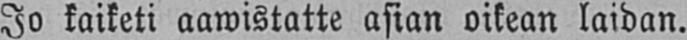Jo kaiketi aawistatte asian oikean laidan.
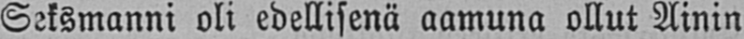Seksmanni oli edellisenä aamuna ollut Ainin
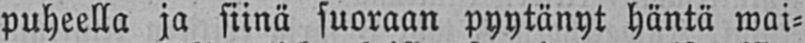puheella ja siinä suoraan pyytänyt häntä wai-
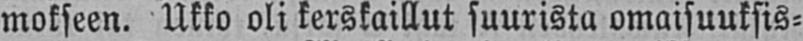mokseen. Ukko oli kerskaillut suurista omaisuuksis-
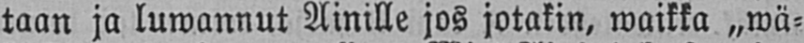taan ja luwannut Ainille jos jotakin, waikka „wä-
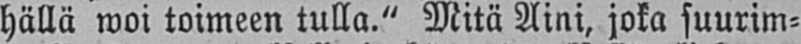hällä woi toimeen tulla." Mitä Aini, joka suurim-
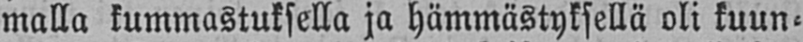malla kummastuksella ja hämmästyksellä oli kuun-
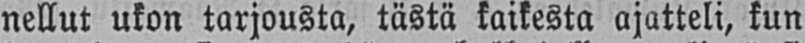nellut ukon tarjousta, tästä kaikesta ajatteli, kun
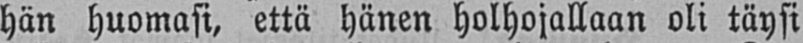hän huomasi, että hänen holhojallaan oli täysi
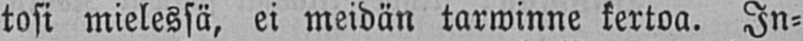tosi mielessä, ei meidän tarwinne kertoa. In-
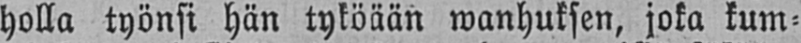holla työnsi hän tyköään wanhuksen, joka kum-
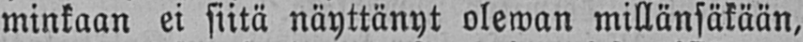minkaan ei siitä näyttänyt olewan millänsäkään,
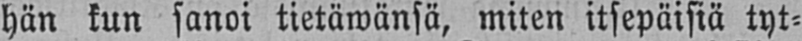hän kun sanoi tietäwänsä, miten itsepäisiä tyt-
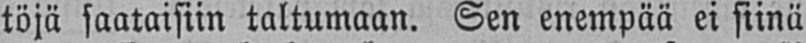töjä saataisiin taltumaan. Sen enempää ei siinä
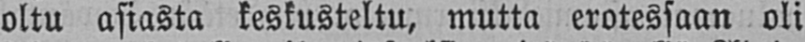oltu asiasta keskusteltu, mutta erotessaan oli
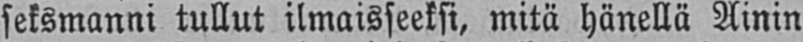seksmanni tullut ilmaisseeksi, mitä hänellä Ainin
